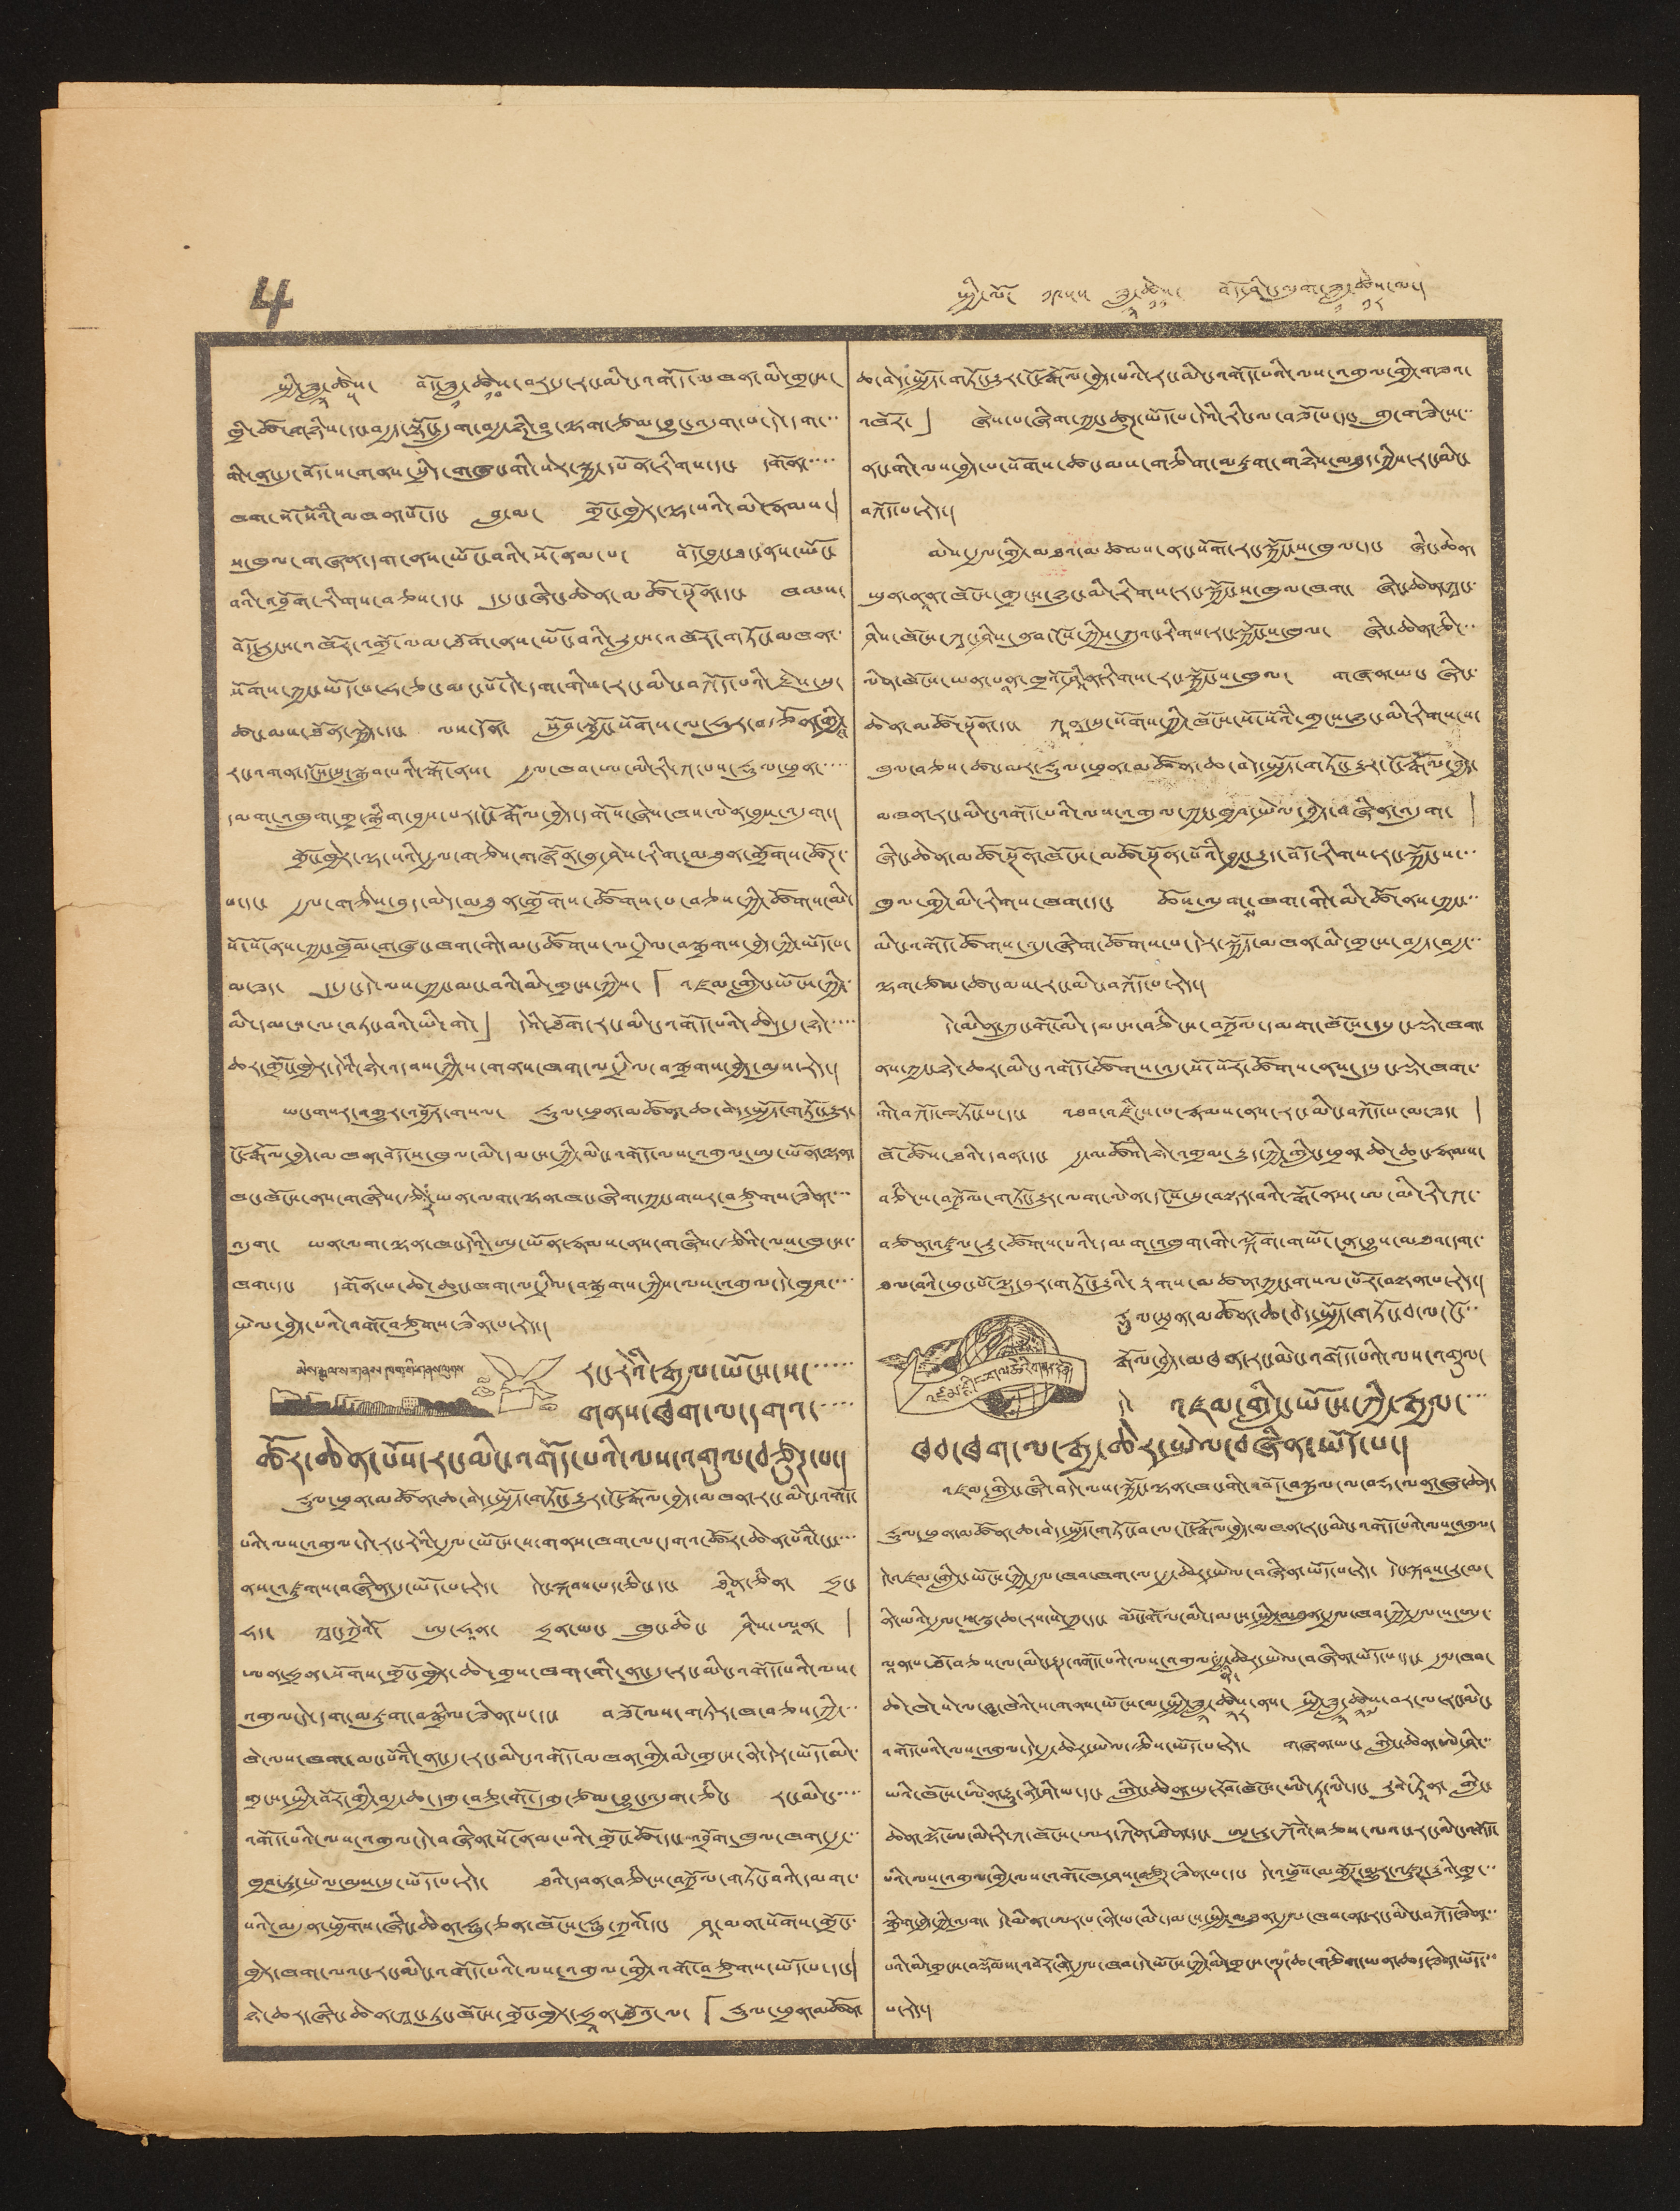4 སྤྱི་ལོ་ ༡༩༥༥ ཟླ་
༣
ཚེས་
༡༡
བོད་ཤིང་ལུག་ཟླ་
༡
ཚེས་
༡༨
ལ་།
སྤྱི་ཟླ་
༣
ཚེས་
༥
བོད་ཟླ་
༡
ཚེས་
༡༠
བར་དུ་རང་མིང་འགོད་མཁན་མི་གྲངས་
ཁྲི་ཚོ་གཉིས་དང་བརྒྱད་སྟོང་དྲུག་བརྒྱ་ཉི་ཤུ་ལྷག་ཙམ་བྱུང་འདུག་པ་དེ་དག་་་
གི་ནང་དུ་གནས་སྲིད་གཞུང་གི་སེར་སྐྱ་དཔོན་རིགས་དང་ དགོན་་་་་
ཁག་སོ་སོའི་མཁན་པོ་དང་ བླ་མ་ གྲོང་ཁྱེར་ལྷ་སའི་མི་རྣམས་།
ས་ཁུལ་གཞན་དག་ནས་ཡོང་བའི་སོ་ནམ་པ་ བོད་བྱང་ཐང་ནས་ཡོང་
བའི་འབྲོག་རིགས་བཅས་དང་ ད་དུང་ཞིང་ཆེན་མཚོ་སྔོན་དང་ ཁམས་
བོད་རླངས་འཁོར་འགྲོ་ལམ་ཐོག་ནས་ཡོང་བའི་རླངས་འཁོར་གཏོང་མཁན་་
སོགས་ཀྱང་ཡོད་པ་ཧ་ཅང་མང་པོ་དེ་དག་གིས་རང་མིང་བཀོད་པའི་རྗེས་སུ་
ཚང་མས་ཐོན་སྐྱེད་དང་ ལས་དོན་ སློབ་སྦྱོང་སོགས་ལ་ཧུར་བརྩོན་གྱིས་
རང་འགན་དངོས་སུ་སྒྲུབ་པའི་སྒོ་ནས་ རྒྱལ་ཁབ་ཨ་མི་རི་ཀ་པས་རྡུལ་ཕྲན་་་་་
དམག་འཁྲུག་གྲྭ་སྒྲིག་བྱས་པར་ངོ་རྒོལ་བྱེད་དགོས་ཞེས་ཁས་ལེན་བྱས་འདུག་།
གྲོང་ཁྱེར་ལྷ་སའི་རྒྱལ་གཅེས་གཞོན་ནུ་ཤེས་རིག་མཐུན་གྲོགས་ཚོཊ་་
པ་དང་ རྒྱལ་གཅེས་བུད་མེད་མཐུན་གྲོགས་ཚོགས་པ་བཅས་ཀྱི་ཚོགས་མི་
སོ་སོ་ནས་ཀྱང་ཁྲོམ་གཞུང་ཁག་གི་མང་ཚོགས་ལ་དྲིལ་བསྒྲགས་བྱེད་ཀྱི་ཡོད་པ་
མ་ཟད་ ད་དུང་དེ་ལས་ཀྱང་མང་བའི་མི་གྲངས་ཀྱིས་ 「འཛམ་གླིང་ཡོངས་ཀྱི་་
མི་དམངས་ལ་བཏང་བའི་ཡི་གེ་」 དེའི་ཐོག་རང་མིང་འགོད་པའི་ཆེད་དུ་ཉེ་་་་་
ཆར་གྲོང་ཁྱེར་དེའི་ཉེ་འདབས་ཀྱི་ས་གནས་ཁག་ལ་དྲིལ་བསྒྲགས་བྱེད་མུས་རེད་།
ཡང་གསར་འགྱུར་འབྱོར་གསལ་ རྡུལ་ཕྲན་མཚོན་ཆ་བེད་སྤྱོད་གཏོང་རྒྱུར་
ངོ་རྒོལ་བྱེད་མཁན་བོད་ས་ཁུལ་མི་དམངས་ཀྱི་མིང་འགོད་ལས་འགུལ་ཨུ་ཡོན་ལྷན་
ཁང་ཁོངས་ནས་གཞིས་རྩེ
ར
་ཡན་ལག་ལྷན་ཁང་ཞིག་ཀྱང་གསར་བཙུགས་ཟིན་་་་
འདུག་ ཡན་ལག་ལྷན་ཁང་དེའི་ཨུ་ཡོན་རྣམས་ནས་གཞིས་རྩེའི་ལས་ཁུངས་་
ཁག་དང་ དགོན་པ་ཆེ་ཆུང་ཁག་ལ་དྲེལ་བསྒྲགས་ཀྱིས་ལས་འགུལ་དེ་ཁྱབ་་་་
སྤེལ་བྱེད་པའི་འགོ་བཙུགས་ཟིན་པ་རེད་།
མེས་རྒྱལ་ས་གནས་ཁག་གི་གནས་ལུགས་
རང་རེའི་རྒྱལ་ཡོངས་ས་་་་་་
གནས་ཁག་ལ་དགའ་་་་་
ཚོར་ཆེན་པོས་རང་མིང་འགོད་པའི་ལས་འགུལ་བཙུཊ་པ་།
རྡུལ་ཕྲན་མཚོན་ཆ་བེད་སྤྱོད་གཏོང་རྒྱུར་ངོ་རྒོལ་བྱེད་མཁན་རང་མིང་འགོད་
པའི་ལས་འགུལ་དེ་རང་རེའི་རྒྱལ་ཡོངས་ས་གནས་ཁག་ལ་དགའ་ཚོར་ཆེན་པོའི་ངང་་་་
ནས་འཛུགས་བཞིན་དུ་ཡོད་པ་རེད་ དེངས་སྐབས་པད་ཅིང་དང་ ཐཱིན་ཅིན་ ཧྲང་
ཧད་ ཀཱང་ཀྲེའོ་ ཨུ་ཧཱན་ ཧྲན་ཡང་ ཁྲུང་ཆིང་ ཤིས་ཨཱན་ །
ཨན་ཧྲན་སོགས་གྲོང་ཁྱེར་ཆེ་གྲས་ཁག་གི་ནང་དུ་རང་མིང་འགོད་པའི་ལས་
འགུལ་དེ་དག་མཇུག་བསྒྲིལ་ཟིན་པ་དང་ བཟོ་ལས་གཏེར་ཁ་བཅས་ཀྱི་་་
ཁེ་ལས་ཁག་མང་པོའི་ནང་དུ་རང་མིང་འགོད་མཁན་གྱི་མི་གྲངས་ནི་དེར་ཡོད་མི་་
གྲངས་སྤྱི་བོར་གྱི་བརྒྱ་ཆ་དགུ་བཅུ་གོ་དགུ་ཙམ་བྱུང་འདུག་ཅིང་ རང་མིང་་་་་
འགོད་པའི་ལས་འགུལ་དེ་བཞིན་སོ་ནམ་པའི་གྲོང་ཚོ་དང་འབྲོག་ཁུལ་ཁག་རྒྱ་་་
ཁྱབ་ཏུ་སྤེལ་མུས་སུ་ཡོད་པ་རེད་ ཐའི་དབན་བཅིངས་བཀྲོལ་གཏོང་བའི་དམག་་
སའི་མདུན་ཕྱོགས་ཞིང་ཆེན་ཧྥུ་ཅན་ཁོངས་ཧྥུ་ཀྲའོ་དང་ ཤཱ་མན་སོགས་གྲོང་་
ཁྱེར་ཁག་ལའང་རང་མིང་འགོད་པའི་ལས་འགུལ་གྱི་འགོ་བཙུགས་ཡོད་པ་དང་།
ཉེ་ཆར་ཞིང་ཆེན་ཀྭང་ཏུང་ཁོངས་གྲོང་ཁྱེར་ཧྲྭན་ཐོའུ་ལ་ 「རྡུལ་ཕྲན་མཚོན་
ཆ་བེད་སྤྱོད་གཏོང་རྒྱུར་ངོ་རྒོལ་བྱེད་པའི་རང་མིང་འགོད་པའི་ལས་འགུལ་གྱི་གཟའ་
འཁོར་」 ཞེས་པ་ཞིག་ཀྱང་ཚུཊ་ཡོད་པ་དེའི་རིང་ལ་བཟོ་པ་དང་ གྲུ་གཟིངས་་་
ནང་གི་ལས་བྱེད་པ་སོགས་ཚང་མས་གཅིག་མཇུག་གཉིས་མཐུད་ཀྱིས་རང་མིང་
བཀོད་པ་རེད་།
མེས་རྒྱལ་གྱི་མཐའ་མཚམས་ནང་སོག་རང་སྐྱོང་ས་ཁུལ་དང་ ཞིང་ཆེན་
ཡུན་ནཱན་ཁོངས་གྲངས་ཉུང་མི་རིགས་རང་སྐྱོང་ས་ཁུལ་ཁག་ ཞིང་ཆེན་ཀཱང་་
ཤིས་ཁོངས་ཀྭང་ཤིས་ནུབ་ངོས་ཀྱིས་ཀྲུའང་རིགས་རང་སྐྱོང་ས་ཁུལ་ ཞིང་ཆེན་ཅི་་་
ལིན་ཁོངས་ཡན་པཱན་ཁྲའོ་ཤཱིན་རིགས་རང་སྐྱོང་ས་ཁུལ་ གཞན་ཡང་ ཞིང་་
ཆེན་མཚོ་སྔོན་དང་ ཀཱན་སུ་སོགས་ཀྱི་ཁོངས་སོ་སོའི་གྲངས་ཉུང་མི་རིགས་ས་
ཁུལ་བཅས་ཚང་མར་རྡུལ་ཕྲན་མཚོན་ཆ་བེད་སྤྱོད་གཏོང་རྒྱུར་ངོ་རྒོལ་བྱེད་
མཁན་རང་མིང་འགོད་པའི་ལས་འགུལ་ཀྱང་ཁྱབ་སྤེལ་བྱེད་བཞིན་འདུག་ །
ཞིང་ཆེན་མཚོ་སྔོན་ཁོངས་མཚོ་སྔོན་པོའི་བྱང་རྒྱུད་བོད་རིགས་རང་སྐྱོང་ས་་་
ཁུལ་གྱི་མི་རིགས་ཁག་དང་ ཆོས་ལུག་
ས
ཁག་གི་མི་ཚོ་ནས་ཀྱང་་་
མིང་འགོད་ཚོགས་འདུ་ཞིག་ཚོགས་པ་དེར་སྐྱོད་མཁན་མི་གྲངས་བརྒྱད་བརྒྱ་་་
ལྷག་ཙམ་ཚང་མས་རང་མིང་བཀོད་པ་རེད་།
དེ་མིན་ཀྲུང་གོ་མི་དམངས་བཅིངས་བཀྲོལ་དམག་ཁོངས་དཔུང་སྡེ་ཁག་
ནས་ཀྱང་ཉེ་ཆར་མིང་འགོད་ཚོགས་འདུ་སོ་སོར་ཚོགས་ནས་དཔུང་སྡེ་ཁག་་
གི་བཀོད་གཏོང་པ་དང་ འཐབ་འཛིངས་པ་རྣམས་ནས་རང་མིང་བཀོད་པ་མ་ཟད་ །
ཁོ་ཚོས་ཐའི་དབན་དང་ རྒྱ་མཚོའི་ཉེ་འགྲམ་རྒྱུད་ཀྱི་གླིང་ཕྲན་ཆེ་ཆུང་རྣམས་
བཅིངས་བཀྲོལ་གཏོང་རྒྱུར་ལག་ལེན་དངོས་སུ་བསྟར་བའི་སྒོ་ནས་ཨ་མི་རི་ཀ་་
བཙན་འཛུལ་རུ་ཚོགས་པའི་དམག་འཁྲུག་གི་ལྐོག་གཡོ་ངན་བྱུས་མཐའ་དག་
ཐལ་བའི་ཕུང་པོ་ལྟ་བུར་གཏོང་རྒྱུའི་རྟགས་མཚན་ཀྱང་གསལ་པོར་བསྟན་པ་རེད་།
རྡུལ་ཕྲན་མཚོན་ཆ་བེད་སྤྱོད་གཏོང་བ་ལ་ངོ་་་
རྒོལ་བྱེད་མཁན་རང་མིང་འགོད་པའི་ལས་འགུལ་
དེ་
འཛམ་གླིང་གལ་ཆེའི་གནད་དོན།
འཛམ་གླིང་ཡོངས་ཀྱི་རྒྱལ་་་་
ཁབ་ཁག་ལ་རྒྱ་ཆེར་སྤེལ་བཞིན་ཡོད་པ་།
འཛམ་གླིང་ཞི་བདེ་ལས་སྐྱོང་ལྷན་ཁང་གི་འབོད་བསྐུལ་ལ་བརྡ་ལན་ཞུ་ཆེད་
རྡུལ་ཕྲན་མཚོན་ཆ་བེད་སྤྱོད་གཏོང་བ་ལ་ངོ་རྒོལ་བྱེད་མཁན་རང་མིང་འགོད་པའི་ལས་འགུལ་
དེ་འཛམ་གླིང་ཡོངས་ཀྱི་རྒྱལ་ཁབ་ཁག་ལ་རྒྱ་ཆེར་སྤེལ་བཞིན་ཡོད་པ་རེད་ དེང་སྐབས་རུ་མ་
ནི་ཡའི་རྒྱལ་ས་སྦུ་ཆ་རས་སེ་ཀྲ་དང་ མོང་གོལ་མི་དམངས་སྤྱི་མཐུན་རྒྱལ་ཁབ་ཀྱི་རྒྱལ་ས་ཨུ་་
ལཱན་པ་ཐོད་བཅས་ལ་མིང་རྟཊ་འགོད་པའི་ལས་འགུལ་
ནི་
རྒྱ་ཆེར་སྤེལ་བཞིན་ཡོད་པ་དང་ རྒྱལ་ཁབ་
ཆེ་ཁེ་སེ་ལ་ཝ་ཁེའི་ས་གནས་ཡོངས་ལ་སྤྱི་ཟླ་
༢
ཚེས་
༢༨
ནས་ སྤྱི་ཟླ་
༣
ཚེས་
༢༧
བར་ལ་རང་མིང་
འགོད་པའི་ལས་འགུལ་དེ་རྒྱ་ཆེར་སྤེལ་རྩིས་ཡོད་པ་རེད་ གཞན་ཡང་ གླིང་ཆེན་ཨེ་ཤི་་་
ཡའི་ཁོངས་ཨིན་རྡུ་ནི་ཤི་ཡ་དང་ གླིང་ཆེན་ཡུ་རོབ་ཁོངས་ཨི་ཏཱ་ལི་དང་ རུའེ་ཏཱིན་ གླིང་
ཆེན་ལྷོ་ཨ་མི་རི་ཀ་ཁོངས་ཨར་ཀིན་ཐིན་དང་ ཨུ་རུ་ཀོའེ་བཅས་ལའང་རང་མིང་འགོད་
པའི་ལས་འགུལ་གྱི་ལས་འགོ་ཁ་ཤས་བཙུཊ་ཟིན་པ་དང་ དེ་འཕྲོས་མགྱོཊ་མྱུར་འཛུཊ་རྒྱུའི་གྲྭ་་་
སྒྲིག་བྱེད་ཀྱི་འདུག་ དེ་མིན་ཨར་པ་ནི་ཡ་མི་དམངས་སྤྱི་མཐུན་རྒྱལ་ཁབ་ནང་རང་མིང་བཀོད་ཟིན་་་
པའི་མི་གྲངས་བསྡོམས་འབོར་གི་རྒྱལ་ཁབ་དེ་ཡོངས་ཀྱི་མི་གྲངས་ལྔ་ཆ་གཅིག་ཡན་ཆད་ཟིན་ཡོད་་་
པ་རེད་།
